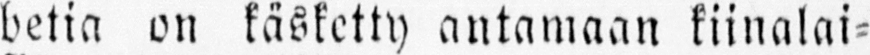betia on käsketty antamaan kiinalai-
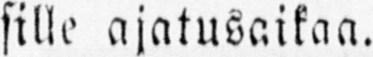sille ajatusaikaa.
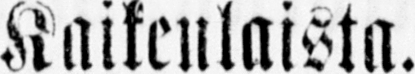Kaikenlaista.
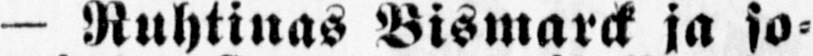— Ruhtinas Bismarck ja so-
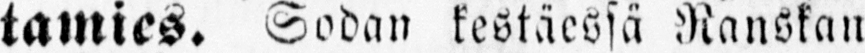tamies. Sodan kestäessä Ranskan
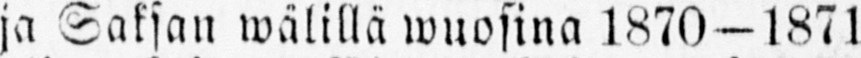ja Saksan wälillä wuosina 1870 — 1871
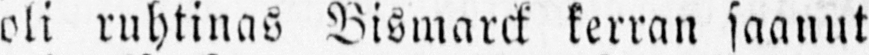oli ruhtinas Bismarck kerran saanut
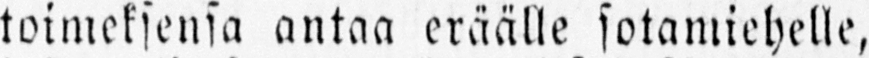toimeksensa antaa eräälle sotamiehelle,
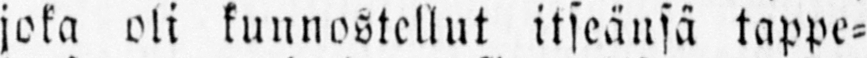joka oli kunnostellut itseänsä tappe-
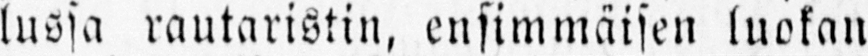lussa rautaristin, ensimmäisen luokan
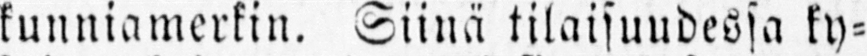kunniamerkin. Siinä tilaisuudessa ky-
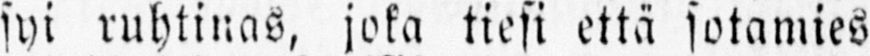syi ruhtinas, joka tiesi että sotamies
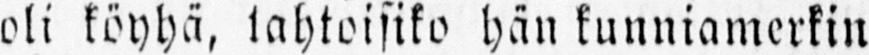oli köyhä, tahtoisiko hän kunniamerkin
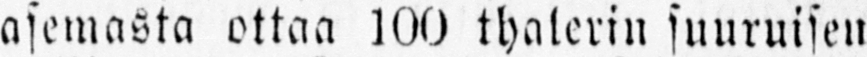asemasta ottaa 100 thalerin suuruisen
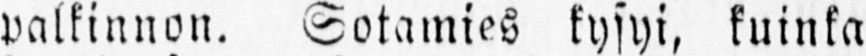palkinnon. Sotamies kysyi, kuinka
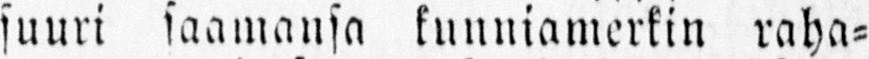suuri saamansa kunniamerkin raha-
